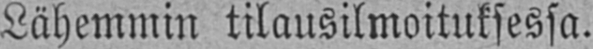Lähemmin tilausilmoituksessa.
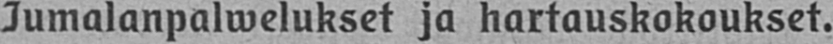Jumalanpalwelukset ja hartauskokoukset.
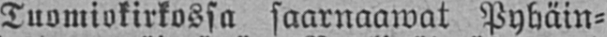Tuomiokirkossa saarnaawat Pyhäin-
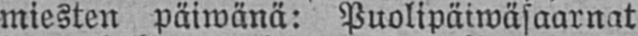miesten päiwänä: Puolipäiwäsaarnat
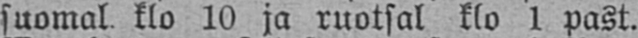suomal klo 10 ja ruotsal klo 1 past.
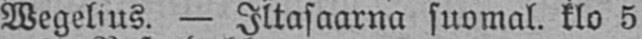Wegelius. — Iltasaarna suomal. klo 5
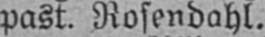past. Rosendahl.
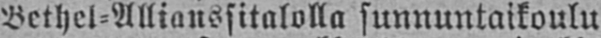Bethel-Allianssitalolla sunnuntaikoulu
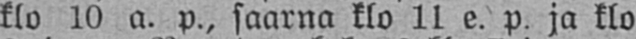klo 10 a. p., saarna klo 11 e. p. ja klo
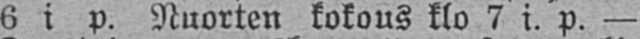6 i p. Nuorten kokous klo 7 i. p. —
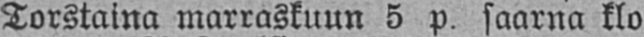Torstaina marraskuun 5 p. saarna klo
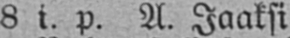8 i. p. A. Jaaksi
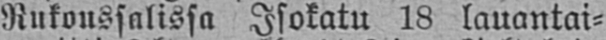Rukoussalissa Isokatu 18 lauantai-
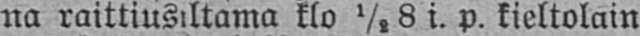na raittiusiltama klo ½ 8 i. p. kieltolain
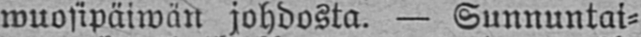wuosipäiwän johdosta. — Sunnuntai-
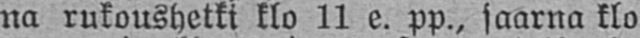na rukoushetki klo 11 e. pp., saarna klo
